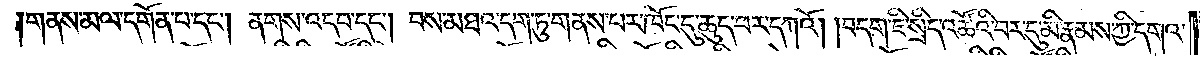གནས་མལ་དགོན་པ་དང༌། ནགས་འདབ་དང༌། བས་མཐའ་དག་ཏུ་གནས་པར་ཁོང་དུ་ཆུད་པར་དཀའོ། །བདག་ཇི་སྲིད་འཚོའི་བར་དུ་མི་རྣམས་ཀྱི་དགའ་
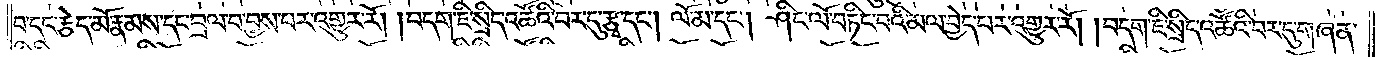བ་དང་རྩེད་མོ་རྣམས་དང་བྲལ་བ་བྱས་པར་འགྱུར་རོ། །བདག་ཇི་སྲིད་འཚོའི་བར་དུ་རྩྭ་དང༌། ལོ་མ་དང༌། ཤིང་ལོ་བཏིང་བའི་མལ་བྱེད་པར་འགྱུར་རོ། །བདག་ཇི་སྲིད་འཚོའི་བར་དུ་གཞན་
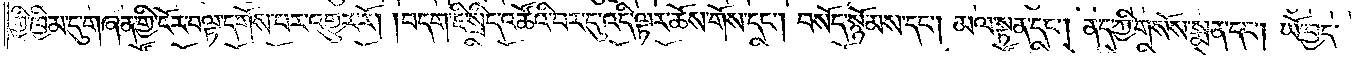གྱི་ཁྱིམ་དུ་གཞན་གྱི་ངོར་བལྟ་དགོས་པར་འགྱུར་རོ། །བདག་ཇི་སྲིད་འཚོའི་བར་དུ་འདི་ལྟར་ཆོས་གོས་དང༌། བསོད་སྙོམས་དང༌། མལ་སྟན་དང༌། ནད་ཀྱི་གསོས་སྨན་དང༌། ཡོ་བྱད་
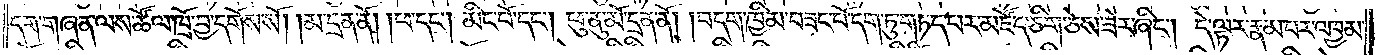དག་གཞན་ལས་ཚོལ་ཁྲོ་བྱ་དགོས་སོ། །མ་དྲན་ནོ། །ཕ་དང༌། མིང་པོ་དང༌། ཕུ་ནུ་མོ་དྲན་ནོ། །བདག་ཁྱིམ་བཟང་པོ་དག་ཏུ་གཏད་པར་མཛོད་ཅིག་ཅེས་ཟེར་ཞིང༌། དེ་ལྟར་རྣམ་པར་འཁྱམ་
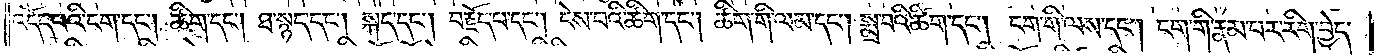འདོད་པའི་ངག་དང༌། ཚིག་དང༌། ཐ་སྙད་དང༌། སྐད་དང༌། བརྗོད་པ་དང༌། ངེས་པའི་ཚིག་དང༌། ཚིག་གི་ལམ་དང༌། སྨྲ་བའི་ཚིག་དང༌། ངག་གི་ལས་དང༌། ངག་གི་རྣམ་པར་རིག་བྱེད་
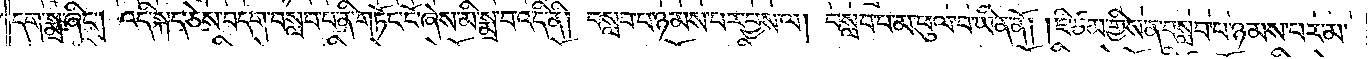དག་སྨྲ་ཞིང༌། འདི་སྐད་ཅེས་བདག་བསླབ་པ་ནི་གཏོང་ངོ་ཞེས་མི་སྨྲ་བ་འདི་ནི། བསླབ་པ་ཉམས་པར་བྱས་ལ། བསླབ་པ་མ་ཕུལ་བ་ཡིན་ནོ། །ཇི་ཙམ་གྱིས་ན་བསླབ་པ་ཉམས་པར་མ་
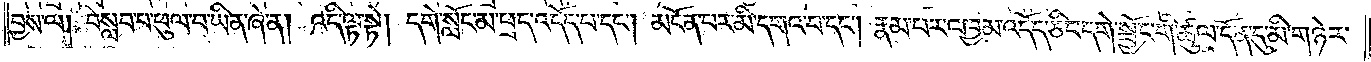བྱས་ལ། བསླབ་པ་ཕུལ་བ་ཡིན་ཞེ་ན། འདི་ལྟ་སྟེ། དགེ་སློང་མ་ཕྲད་འདོད་པ་དང༌། མངོན་པར་མི་དགའ་བ་དང༌། རྣམ་པར་འཁྱམ་འདོད་ཅིང་དགེ་སྦྱོང་གི་ཚུལ་དོན་དུ་མི་གཉེར་
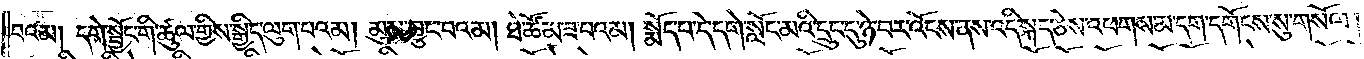བའམ། དགེ་སྦྱོང་གི་ཚུལ་གྱིས་སྒྱིད་ལུག་པའམ། མུས་བྱུང་བའམ། ཐེ་ཚོམ་ཟ་བའམ། སྨོད་པ་དེ་དགེ་སློང་མའི་དྲུང་དུ་ཉེ་བར་འོངས་ནས་འདི་སྐད་ཅེས་འཕགས་མ་དག་དགོངས་སུ་གསོལ།
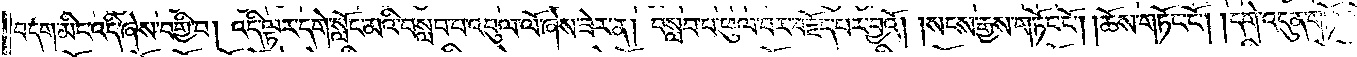བདག་མིང་འདི་ཞེས་བགྱི་བ། འདི་ལྟར་དགེ་སློང་མའི་བསླབ་པ་འབུལ་ལོ་ཞེས་ཟེར་ན། བསླབ་པ་ཕུལ་བར་བརྗོད་པར་བྱའོ། །སངས་རྒྱས་གཏོང་ངོ༌། །ཆོས་གཏོང་ངོ༌། །དགེ་འདུན་གཏོང་ངོ༌། །
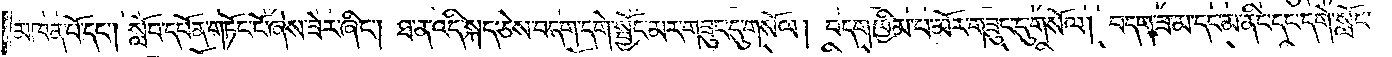མཁན་པོ་དང༌། སློབ་དཔོན་གཏོང་ངོ་ཞེས་ཟེར་ཞིང༌། ཐ་ན་འདི་སྐད་ཅེས་བདག་དགེ་སྦྱོང་མར་གཟུང་དུ་གསོལ། བདག་ཁྱིམ་པ་མོར་གཟུང་དུ་གསོལ། བདག་ཟ་མ་དང་མ་ནིང་དང་དགེ་སློང་
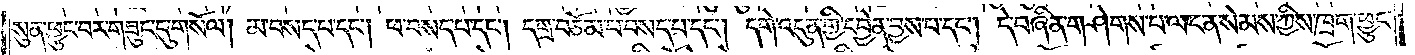སུན་ཕྱུང་བར་གཟུང་དུ་གསོལ། མ་བསད་པ་དང༌། ཕ་བསད་པ་དང༌། དགྲ་བཅོམ་པ་བསད་པ་དང༌། དགེ་འདུན་གྱི་དབྱེན་བྱེས་པ་དང༌། དེ་བཞིན་གཤེགས་པ་ལ་ངན་སེམས་ཀྱིས་ཁྲག་ཕྱུང་
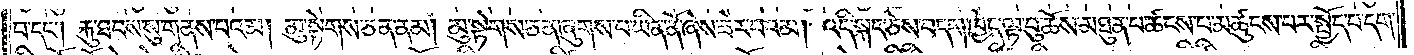བ་དང༌། རྐུ་ཐབས་སུ་གནས་པའམ། མུ་སྟེགས་ཅན་ནམ། མུ་སྟེགས་ཅན་ཞུགས་པ་ཡིན་ནོ་ཞེས་ཟེར་བའམ། འདི་སྐད་ཅེས་བདག་ཁྱེད་ལྟ་བུ་ཆོས་མཐུན་པ་ཚངས་པ་མཚུངས་པར་སྤྱོད་པ་དག་
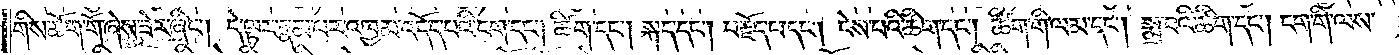གིས་ཆོག་གོ་ཞེས་ཟེར་ཞིང༌། དེ་ལྟར་རྣམ་པར་འཁྱམ་འདོད་པའི་ངག་དང༌། ཚིག་དང༌། སྐད་དང༌། བརྗོད་པ་དང༌། ངེས་པའི་ཚིག་དང༌། ཚིག་གི་ལམ་དང༌། སྨྲ་བའི་ཚིག་དང༌། ངག་གི་ལས་
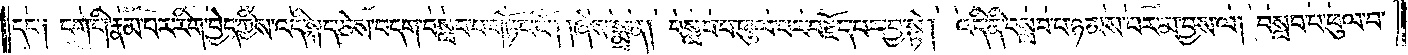དང་༑ ངག་གི་རྣམ་པར་རིག་བྱེད་ཀྱིས་འདི་སྐད་ཅེས་བདག་བསླབ་པ་གཏོང་ངོ༌། །ཞེས་སྨྲ་ན། བསླབ་པ་ཕུལ་བར་བརྗོད་པར་བྱ་སྟེ། འདི་ནི་བསླབ་པ་ཉམས་པར་མ་བྱས་ལ། བསླབ་པ་ཕུལ་བ་
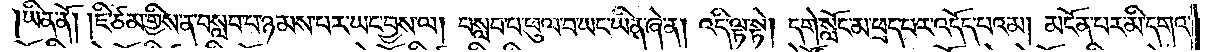།ཡིན་ནོ། །ཇི་ཙམ་གྱིས་ན་བསླབ་པ་ཉམས་པར་ཡང་བྱས་ལ། བསླབ་པ་ཕུལ་བ་ཡང་ཡིན་ཞེ་ན། འདི་ལྟ་སྟེ། དགེ་སློང་མ་ཕྲད་པར་འདོད་པའམ། མངོན་པར་མི་དགའ་
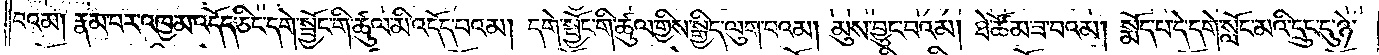བའམ། རྣམ་པར་འཁྱམ་འདོད་ཅིང་དགེ་སྦྱོང་གི་ཚུལ་མི་འདོད་པའམ། དགེ་སྦྱོང་གི་ཚུལ་གྱིས་སྒྱིད་ལུག་པའམ། མུས་བྱུང་བའམ། ཐེ་ཚོམ་ཟ་བའམ། སྨོད་པ་དེ་དགེ་སློང་མའི་དྲུང་དུ་ཉེ་
